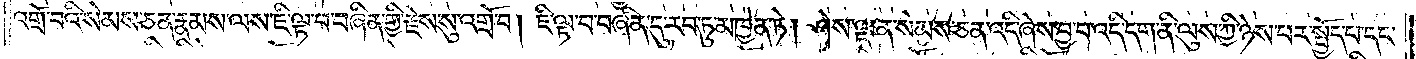འགྲོ་བའི་སེམས་ཅན་རྣམས་ལས་ཇི་ལྟ་བ་བཞིན་གྱི་རྗེས་སུ་འགྲོ་བ། ཇི་ལྟ་བ་བཞིན་དུ་རབ་ཏུ་མཁྱེན་ཏེ། ཤེས་ལྡན་སེམས་ཅན་འདི་ཞེས་བྱ་བ་འདི་དག་ནི་ལུས་ཀྱི་ཉེས་པར་སྤྱོད་པ་དང་
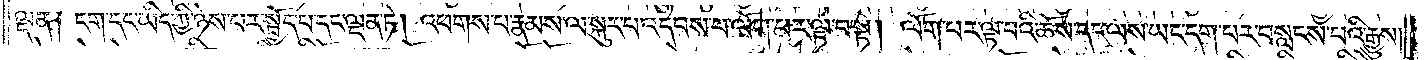ལྡན༑ ངག་དང་ཡིད་ཀྱི་ཉེས་པར་སྤྱོད་པ་དང་ལྡན་ཏེ། འཕགས་པ་རྣམས་ལ་སྐུར་པ་འདེབས་པ་ལོག་པར་ལྟ་བ་སྟེ། ལོག་པར་ལྟ་བའི་ཆོས་དང་ལས་ཡང་དག་པར་བསླངས་པའི་རྒྱུས།
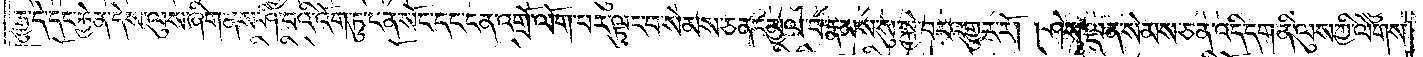རྒྱུ་དེ་དང་རྐྱེན་དེས་ལུས་ཞིག་ནས་ཤི་བའི་འོག་ཏུ་ངན་སོང་དང་ངན་འགྲོ་ལོག་པར་ལྟུང་བ་སེམས་ཅན་དམྱལ་བ་རྣམས་སུ་སྐྱེ་བར་འགྱུར་རོ། །ཤེས་ལྡན་སེམས་ཅན་འདི་དག་ནི་ལུས་ཀྱི་ལེགས་
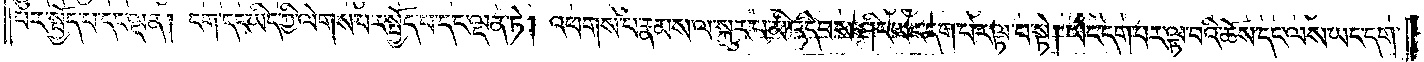པར་སྤྱོད་པ་དང་ལྡན། ངག་དང་ཡིད་ཀྱི་ལེགས་པར་སྤྱོད་པ་དང་ལྡན་ཏེ། འཕགས་པ་རྣམས་ལ་སྐུར་པ་མི་འདེབས་ཤིང་ཡང་དག་པར་ལྟ་བ་སྟེ། ཡང་དག་པར་ལྟ་བའི་ཆོས་དང་ལས་ཡང་དག་
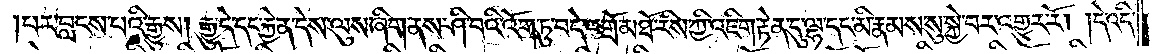།པར་བླངས་པའི་རྒྱུས། རྒྱུ་དེ་དང་རྐྱེན་དེས་ལུས་ཞིག་ནས་ཤི་བའི་འོག་ཏུ་བདེ་འགྲོ་མཐོ་རིས་ཀྱི་འཇིག་རྟེན་དུ་ལྷ་དང་མི་རྣམས་སུ་སྐྱེ་བར་འགྱུར་རོ། །དེ་འདི་
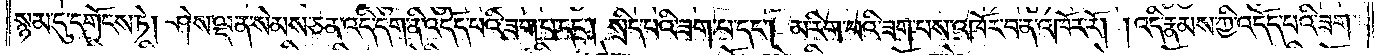སྙམ་དུ་དགོངས་ཏེ། ཤེས་ལྡན་སེམས་ཅན་འདི་དག་ནི་འདོད་པའི་ཟག་པ་དང༌། སྲིད་པའི་ཟག་པ་དང༌། མ་རིག་པའི་ཟག་པས་འཁོར་བ་ན་འཁོར་རོ། །འདི་རྣམས་ཀྱི་འདོད་པའི་ཟག་
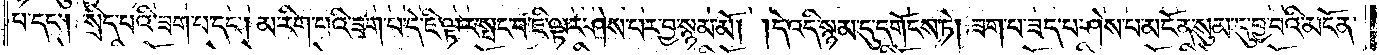པ་དང༌། སྲིད་པའི་ཟག་པ་དང༌། མ་རིག་པའི་ཟག་པ་དེ་ཇི་ལྟར་སྤང་བ་ཇི་ལྟར་ཤེས་པར་བྱ་སྙམ་མོ། །དེ་འདི་སྙམ་དུ་དགོངས་ཏེ། ཟག་པ་ཟད་པ་ཤེས་པ་མངོན་སུམ་དུ་བྱ་བའི་མངོན་
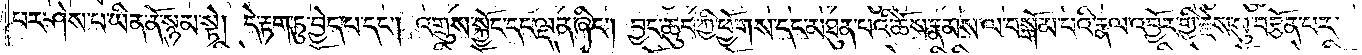པར་ཤེས་པ་ཡིན་ནོ་སྙམ་སྟེ། དེ་རྟག་ཏུ་བྱེད་པ་དང༌། འགྲུས་སྐྱོང་དང་ལྡན་ཞིང༌། བྱང་ཆུབ་ཀྱི་ཕྱོགས་དང་མཐུན་པའི་ཆོས་རྣམས་ལ་བསྒོམ་པའི་རྣལ་འབྱོར་གྱི་རྗེས་སུ་བརྩོན་པར་
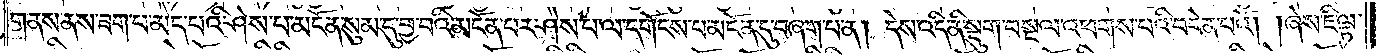གནས་ནས་ཟག་པ་མེད་པའི་ཤེས་པ་མངོན་སུམ་དུ་བྱ་བའི་མངོན་པར་ཤེས་པ་ལ་དགོངས་པ་མངོན་དུ་བཞག་པ་ན། དེས་འདི་ནི་སྡུག་བསྔལ་འཕགས་པའི་བདེན་པའོ། །ཞེས་ཇི་ལྟ་
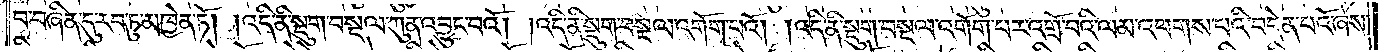བ་བཞིན་དུ་རབ་ཏུ་མཁྱེན་ཏོ། །འདི་ནི་སྡུག་བསྔལ་ཀུན་འབྱུང་བའོ། །འདི་ནི་སྡུག་བསྔལ་འགོག་པའོ། །འདི་ནི་སྡུག་བསྔལ་འགོག་པར་འགྲོ་བའི་ལམ་འཕགས་པའི་བདེན་པའོ་ཞེས་
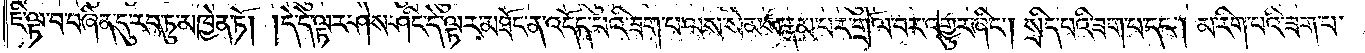ཇི་ལྟ་བ་བཞིན་དུ་རབ་ཏུ་མཁྱེན་ཏོ། །དེ་དེ་ལྟར་ཤེས་ཤིང་དེ་ལྟར་མཐོང་ན་འདོད་པའི་ཟག་པ་ལས་སེམས་རྣམ་པར་གྲོལ་བར་འགྱུར་ཞིང༌། སྲིད་པའི་ཟག་པ་དང༌། མ་རིག་པའི་ཟག་པ་
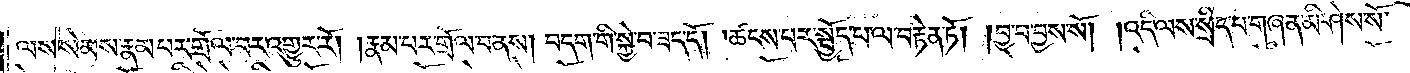ལས་སེམས་རྣམ་པར་གྲོལ་བར་འགྱུར་རོ། །རྣམ་པར་གྲོལ་བ་ནས། བདག་གི་སྐྱེ་བ་ཟད་དོ། །ཚངས་པར་སྤྱོད་པ་ལ་བརྟེན་ཏོ། །བྱ་བ་བྱས་སོ། །འདི་ལས་སྲིད་པ་གཞན་མི་ཤེས་སོ་
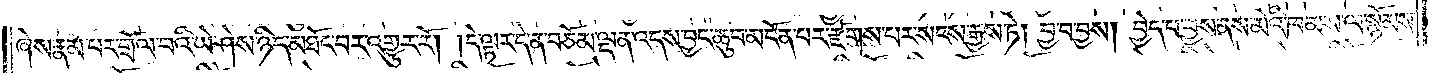ཞེས་རྣམ་པར་གྲོལ་བའི་ཡེ་ཤེས་ཉིད་མཐོང་བར་འགྱུར་རོ། །དེ་ལྟར་དེ་ན་བཅོམ་ལྡན་འདས་བྱང་ཆུབ་མངོན་པར་རྫོགས་པར་སངས་རྒྱས་ཏེ། བྱ་བ་བྱས། བྱེད་པ་བྱས་ནས་མེའི་ཁམས་ལ་སྙོམས་
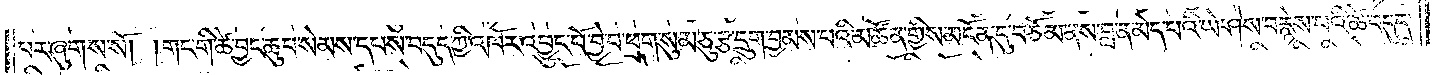པར་ཞུགས་སོ། །གང་གི་ཚེ་བྱང་ཆུབ་སེམས་དཔས་བདུད་ཀྱི་འཁོར་འབྱུང་པོ་བྱེ་བ་ཕྲག་སུམ་ཅུ་རྩ་དྲུག་བྱམས་པའི་མཚོན་གྱིས་མངོན་དུ་བཅོམ་ནས་བླ་ན་མེད་པའི་ཡེ་ཤེས་བརྙེས་པའི་ཚེ་བདུད་
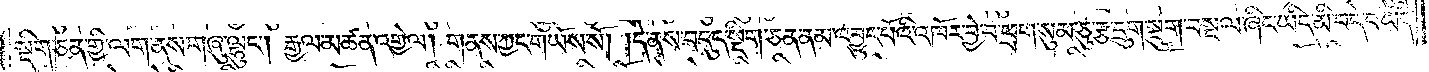སྡིག་ཅན་གྱི་ལག་ནས་གཞུ་ལྷུང༌། རྒྱལ་མཚན་འགྱེལ། གནས་ཀྱང་གཡོས་སོ། །དེ་ནས་བདུད་སྡིག་ཅན་ནམ་འབྱུང་པོའི་འཁོར་བྱེ་བ་ཕྲག་སུམ་ཅུ་རྩ་དྲུག་སྡུག་བསྔལ་ཞིང་ཡིད་མི་བདེ་བ་ཡིད་
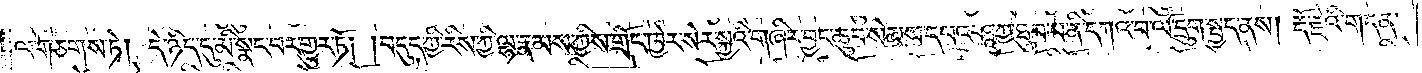ལ་གཅགས་ཏེ། དེ་ཉིད་དུ་མི་སྣང་བར་གྱུར་ཏོ། །བདུད་ཀྱི་རིས་ཀྱི་ལྷ་རྣམས་ཀྱིས་གྲོང་ཁྱེར་སེར་སྐྱའི་གཞིར་བྱང་ཆུབ་སེམས་དཔའ་ཤཱཀྱ་ཐུབ་པ་ནི་དཀའ་བ་ལོ་དྲུག་སྤྱད་ནས། རྡོ་རྗེའི་གདན་
